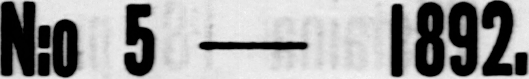N:o 5 — 1892.
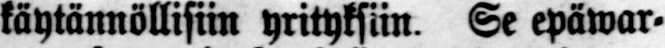käytännöllisiin yrityksiin. Se epäwar-
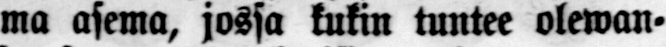ma asema, jossa kukin tuntee olewan-
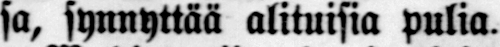sa, synnyttää alituisia pulia.
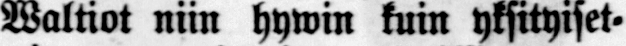Waltiot niin hywin kuin yksityiset-
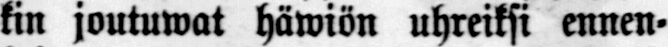kin joutuwat häwiön uhreiksi ennen-
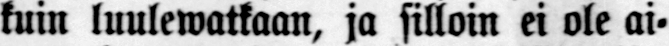kuin luulewatkaan, ja silloin ei ole ai-
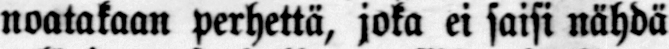noatakaan perhettä, joka ei saisi nähdä
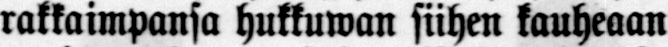rakkaimpansa hukkuwan siihen kauheaan
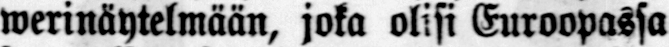werinäytelmään, joka olisi Euroopassa
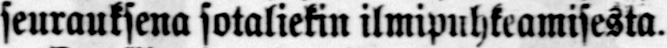seurauksena sotaliekin ilmipuhkeamisesta.
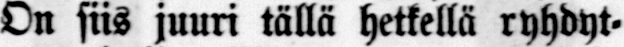On siis juuri tällä hetkellä ryhdyt-
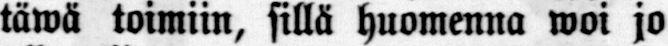täwä toimiin, sillä huomenna woi jo
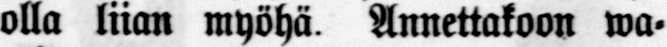olla liian myöhä. Annettakoon wa-
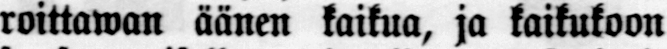roittawan äänen kaikua, ja kaikukoon
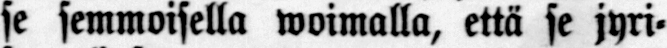se semmoisella woimalla, että se jyri-
